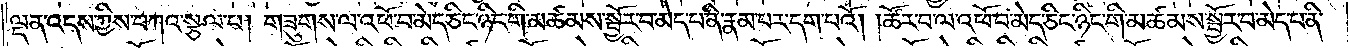ལྡན་འདས་ཀྱིས་བཀའ་སྩལ་བ། གཟུགས་ལ་འཕོ་བ་མེད་ཅིང་ཉིང་གི་མཚམས་སྦྱོར་བ་མེད་པ་ནི་རྣམ་པར་དག་པའོ། །ཚོར་བ་ལ་འཕོ་བ་མེད་ཅིང་ཉིང་གི་མཚམས་སྦྱོར་བ་མེད་པ་ནི་
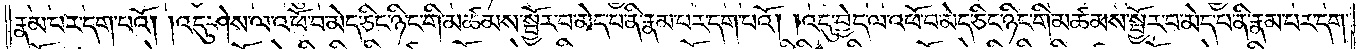རྣམ་པར་དག་པའོ། །འདུ་ཤེས་ལ་འཕོ་བ་མེད་ཅིང་ཉིང་གི་མཚམས་སྦྱོར་བ་མེད་པ་ནི་རྣམ་པར་དག་པའོ། །འདུ་བྱེད་ལ་འཕོ་བ་མེད་ཅིང་ཉིང་གི་མཚམས་སྦྱོར་བ་མེད་པ་ནི་རྣམ་པར་དག་
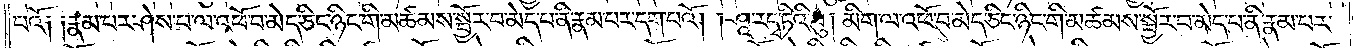པའོ༑ ༑རྣམ་པར་ཤེས་པ་ལ་འཕོ་བ་མེད་ཅིང་ཉིང་གི་མཚམས་སྦྱོར་བ་མེད་པ་ནི་རྣམ་པར་དག་པའོ། །ཤཱ་རདྭ་ཏིའི་བུ། མིག་ལ་འཕོ་བ་མེད་ཅིང་ཉིང་གི་མཚམས་སྦྱོར་བ་མེད་པ་ནི་རྣམ་པར་
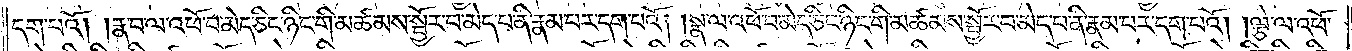དག་པའོ། །རྣ་བ་ལ་འཕོ་བ་མེད་ཅིང་ཉིང་གི་མཚམས་སྦྱོར་བ་མེད་པ་ནི་རྣམ་པར་དག་པའོ། །སྣ་ལ་འཕོ་བ་མེད་ཅིང་ཉིང་གི་མཚམས་སྦྱོར་བ་མེད་པ་ནི་རྣམ་པར་དག་པའོ། །ལྕེ་ལ་འཕོ་
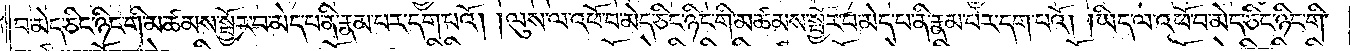བ་མེད་ཅིང་ཉིང་གི་མཚམས་སྦྱོར་བ་མེད་པ་ནི་རྣམ་པར་དག་པའོ། །ལུས་ལ་འཕོ་བ་མེད་ཅིང་ཉིང་གི་མཚམས་སྦྱོར་བ་མེད་པ་ནི་རྣམ་པར་དག་པའོ། །ཡིད་ལ་འཕོ་བ་མེད་ཅིང་ཉིང་གི་
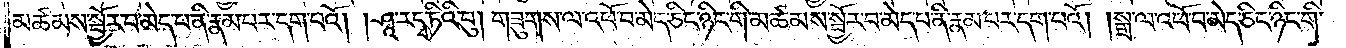མཚམས་སྦྱོར་བ་མེད་པ་ནི་རྣམ་པར་དག་པའོ། །ཤཱ་རདྭ་ཏིའི་བུ། གཟུགས་ལ་འཕོ་བ་མེད་ཅིང་ཉིང་གི་མཚམས་སྦྱོར་བ་མེད་པ་ནི་རྣམ་པར་དག་པའོ། །སྒྲ་ལ་འཕོ་བ་མེད་ཅིང་ཉིང་གི་
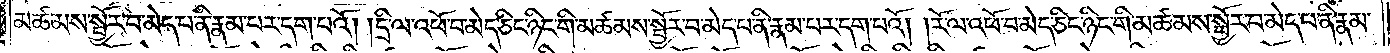མཚམས་སྦྱོར་བ་མེད་པ་ནི་རྣམ་པར་དག་པའོ། །དྲི་ལ་འཕོ་བ་མེད་ཅིང་ཉིང་གི་མཚམས་སྦྱོར་བ་མེད་པ་ནི་རྣམ་པར་དག་པའོ། །རོ་ལ་འཕོ་བ་མེད་ཅིང་ཉིང་གི་མཚམས་སྦྱོར་བ་མེད་པ་ནི་རྣམ་
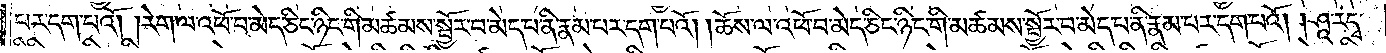པར་དག་པའོ། །རེག་ལ་འཕོ་བ་མེད་ཅིང་ཉིང་གི་མཚམས་སྦྱོར་བ་མེད་པ་ནི་རྣམ་པར་དག་པའོ། །ཆོས་ལ་འཕོ་བ་མེད་ཅིང་ཉིང་གི་མཚམས་སྦྱོར་བ་མེད་པ་ནི་རྣམ་པར་དག་པའོ། །ཤཱ་རདྭ་
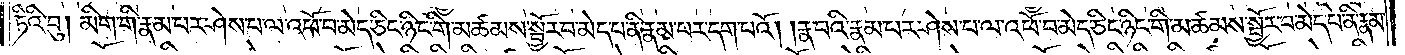ཏིའི་བུ། མིག་གི་རྣམ་པར་ཤེས་པ་ལ་འཕོ་བ་མེད་ཅིང་ཉིང་གི་མཚམས་སྦྱོར་བ་མེད་པ་ནི་རྣམ་པར་དག་པའོ། །རྣ་བའི་རྣམ་པར་ཤེས་པ་ལ་འཕོ་བ་མེད་ཅིང་ཉིང་གི་མཚམས་སྦྱོར་བ་མེད་པ་ནི་རྣམ་
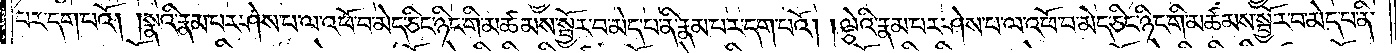པར་དག་པའོ། །སྣའི་རྣམ་པར་ཤེས་པ་ལ་འཕོ་བ་མེད་ཅིང་ཉིང་གི་མཚམས་སྦྱོར་བ་མེད་པ་ནི་རྣམ་པར་དག་པའོ། །ལྕེའི་རྣམ་པར་ཤེས་པ་ལ་འཕོ་བ་མེད་ཅིང་ཉིང་གི་མཚམས་སྦྱོར་བ་མེད་པ་ནི་
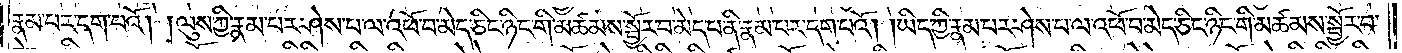རྣམ་པར་དག་པའོ། །ལུས་ཀྱི་རྣམ་པར་ཤེས་པ་ལ་འཕོ་བ་མེད་ཅིང་ཉིང་གི་མཚམས་སྦྱོར་བ་མེད་པ་ནི་རྣམ་པར་དག་པའོ། །ཡིད་ཀྱི་རྣམ་པར་ཤེས་པ་ལ་འཕོ་བ་མེད་ཅིང་ཉིང་གི་མཚམས་སྦྱོར་བ་
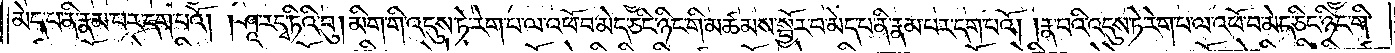མེད་པ་ནི་རྣམ་པར་དག་པའོ། །ཤཱ་རདྭ་ཏིའི་བུ། མིག་གི་འདུས་ཏེ་རེག་པ་ལ་འཕོ་བ་མེད་ཅིང་ཉིང་གི་མཚམས་སྦྱོར་བ་མེད་པ་ནི་རྣམ་པར་དག་པའོ། །རྣ་བའི་འདུས་ཏེ་རེག་པ་ལ་འཕོ་བ་མེད་ཅིང་ཉིང་གི་
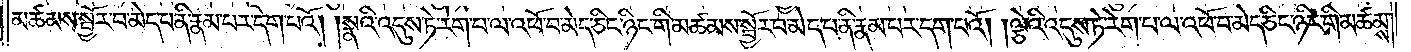མཚམས་སྦྱོར་བ་མེད་པ་ནི་རྣམ་པར་དག་པའོ། །སྣའི་འདུས་ཏེ་རེག་པ་ལ་འཕོ་བ་མེད་ཅིང་ཉིང་གི་མཚམས་སྦྱོར་བ་མེད་པ་ནི་རྣམ་པར་དག་པའོ། །ལྕེའི་འདུས་ཏེ་རེག་པ་ལ་འཕོ་བ་མེད་ཅིང་ཉིང་གི་མཚམས་
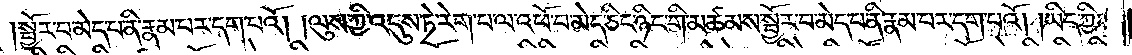སྦྱོར་བ་མེད་པ་ནི་རྣམ་པར་དག་པའོ། །ལུས་ཀྱི་འདུས་ཏེ་རེག་པ་ལ་འཕོ་བ་མེད་ཅིང་ཉིང་གི་མཚམས་སྦྱོར་བ་མེད་པ་ནི་རྣམ་པར་དག་པའོ། །ཡིད་ཀྱི་
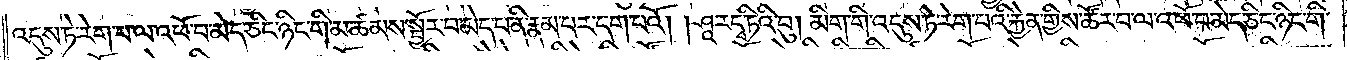འདུས་ཏེ་རེག་པ་ལ་འཕོ་བ་མེད་ཅིང་ཉིང་གི་མཚམས་སྦྱོར་བ་མེད་པ་ནི་རྣམ་པར་དག་པའོ། །ཤཱ་རདྭ་ཏིའི་བུ། མིག་གི་འདུས་ཏེ་རེག་པའི་རྐྱེན་གྱིས་ཚོར་བ་ལ་འཕོ་བ་མེད་ཅིང་ཉིང་གི་
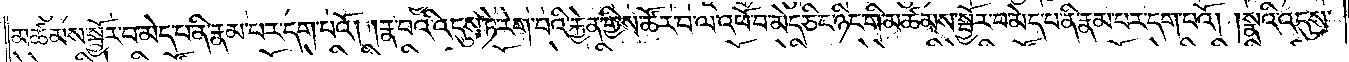མཚམས་སྦྱོར་བ་མེད་པ་ནི་རྣམ་པར་དག་པའོ། །རྣ་བའི་འདུས་ཏེ་རེག་པའི་རྐྱེན་གྱིས་ཚོར་བ་ལ་འཕོ་བ་མེད་ཅིང་ཉིང་གི་མཚམས་སྦྱོར་བ་མེད་པ་ནི་རྣམ་པར་དག་པའོ། །སྣའི་འདུས་
